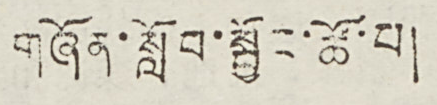གཞོན་སློབ་སྦྱོང་ཚོ་བ།
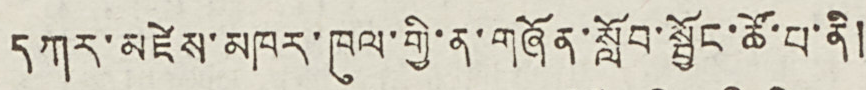དཀར་མཛེས་མཁར་ཁུལ་གྱི་ན་གཞོན་སློབ་སྦྱོང་ཚོ་བ་ནི།
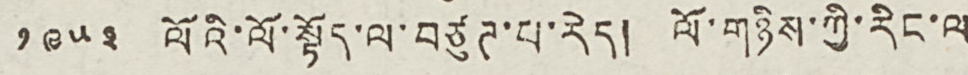༡༩༥༣ ལོའི་ལོ་སྟོད་ལ་བཙུཊ་པ་རེད། ལོ་གཉིས་ཀྱི་རིང་ལ
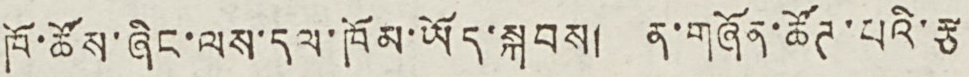ཁོ་ཚོས་ཞིང་ལས་དལ་ཁོམ་ཡོད་སྐབས། ན་གཞོན་ཚོཊ་པའི་རྩ
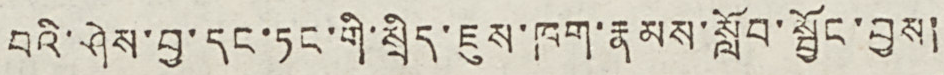བའི་ཤེས་བྱ་དང་ཏང་གི་སྲིད་ཇུས་ཁག་རྣམས་སློབ་སྦྱོང་བྱས།
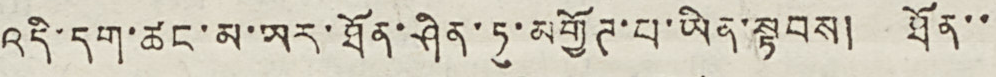འདི་དག་ཚང་མ་ཡར་ཐོན་ཤིན་ཏུ་མགྱོཊ་པ་ཡིན་སྟབས། ཐོན་་
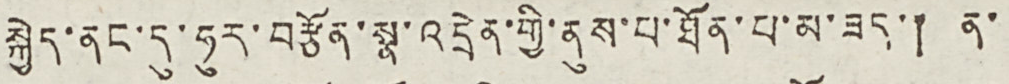སྐྱེད་ནང་དུ་ཧུར་བརྩོན་སྣ་འདྲེན་གྱི་ནུས་པ་ཐོན་པ་མ་ཟད། ན་
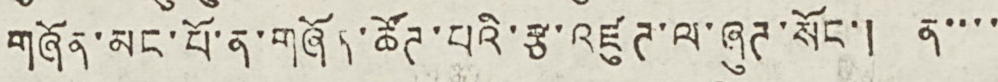གཞོན་མང་པོ་ན་གཞོན་ཚོཊ་པའི་རྩ་འཛུཊ་ལ་ཞུཊ་སོང་། ན་་་་
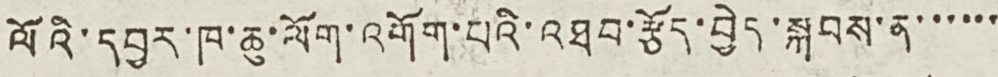ལོའི་དབྱར་ཁ་ཆུ་ལོག་འགོག་པའི་འཐབ་རྩོད་བྱེད་སྐབས་ན་་་་་་
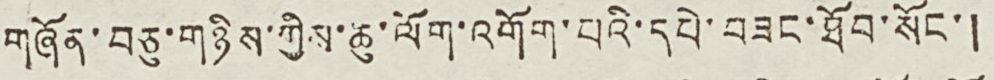གཞོན་བཅུ་གཉིས་ཀྱིས་ཆུ་ལོག་འགོག་པའི་དཔེ་བཟང་ཐོབ་སོང་།
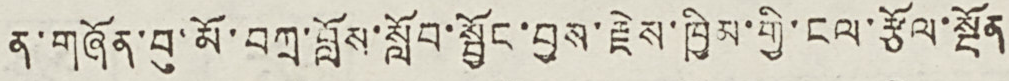ན་གཞོན་བུ་མོ་བཀྲ་བློས་སྦྱོང་བྱས་རྗེས་ཁྱིམ་གྱི་ངལ་རྩོལ་སྔོན
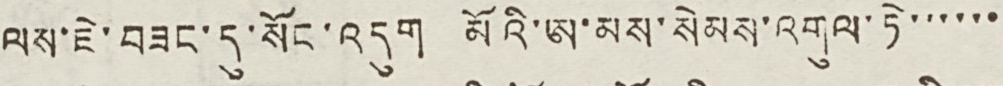ལས་ཇེ་བཟང་དུ་སོང་འདུག མོའི་ཨ་མས་སེམས་འགུལ་ཏེ་་་་་་
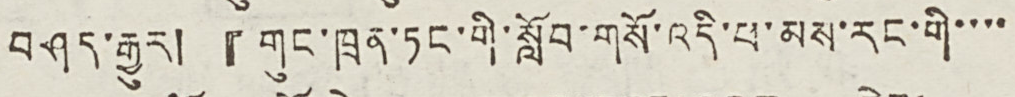བཤད་རྒྱུར། 『གུང་ཁྲན་ཏང་གི་སློབ་གསོ་འདི་ཕ་མས་རང་གི་་་་
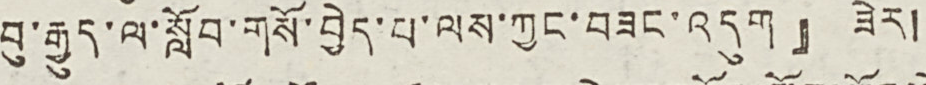བུ་རྒྱུད་ལ་སློབ་གསོ་བྱེད་པ་ལས་ཀྱང་བཟང་འདུག』ཟེར།
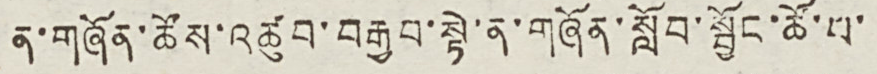ན་གཞོན་ཚོས་འཚུབ་བརྒྱབ་སྟེ་ན་གཞོན་སློབ་སྦྱོང་ཚོ་བ་
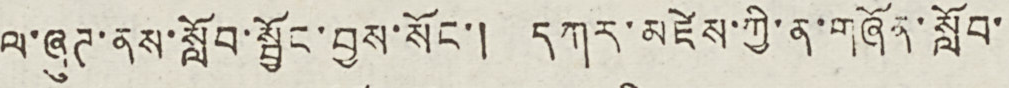ལ་ཞུཊ་ནས་སློབ་སྦྱོང་བྱས་སོང་། དཀར་མཛེས་ཀྱི་ན་གཞོན་སློབ་
